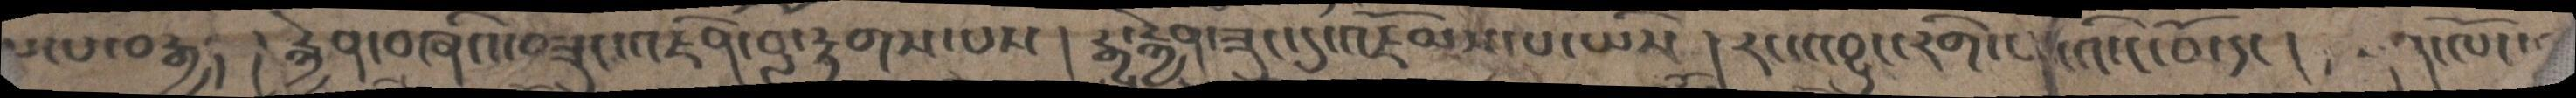ལ་པ་བརྒྱད། རྐྱེན་བཞིའ་བཟུང་འཛིན་བློ་རྟགས་པས། རྒྱུ་རྐྱེན་ཟུང་དུ་འཇོམས་པ་ཡིས། རང་འབྱུང་རིག་པ་འི་ངོ་བོ་དང། ན་ལོང་
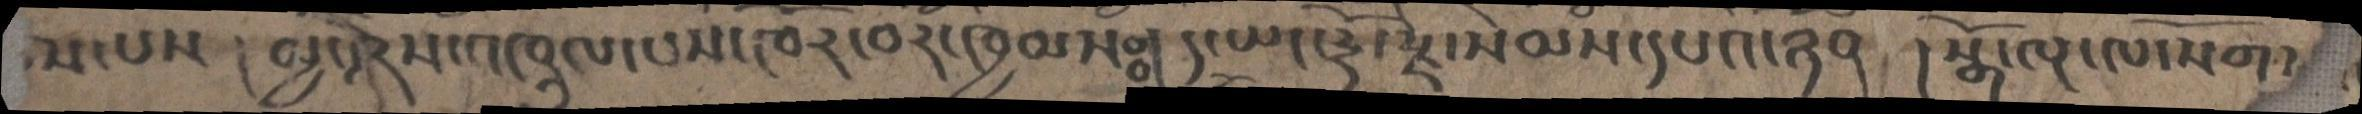ས་པས། མྱི་ཤེས་འཁྲུལ་པས་ཁོར་བར་ཁྱམསཿ །ད་ཡང་རྡོ་རྗེ་སེམས་དཔའ་ཉོན །སྒོ་ལྔ་ལ་སོགས
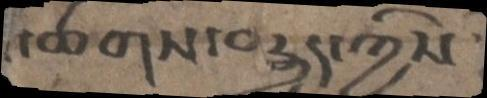་ཚགས་བརྒྱད་ཀྱིས
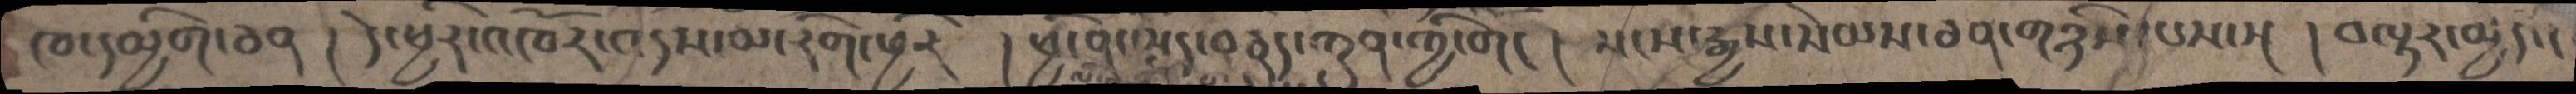ཁ་དམྱིག་ཅན །དེ་ཕྱིར་འཁོར་འདས་མ་རིག་ཕྱིར ། ཕྱི་ནང་སྣོད་བཅུད་ཀུན་ཀྱི་གང། སངས་རྒྱས་སེམས་ཅན་གཉིས་པས་སྔ། བལྟར་མྱེད་ང
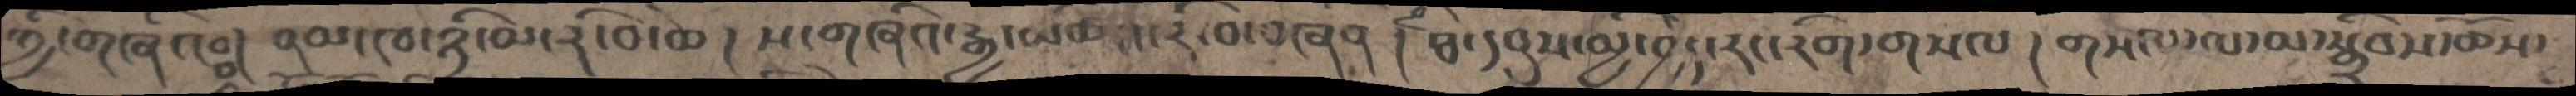ཀྱི་གཞིའཿ  །ནམ་ཁ་ཉི་མ་རི་བོ་ཆེ། ས་གཞིའ་རྒྱ་མཚོའ་རི་བོ་བཞིན ། ཐ་དབུས་མྱི་བྱེད་རང་རིག་གསལ། གསལ་ལ་མ་སྒྲིབས་ཆོས་
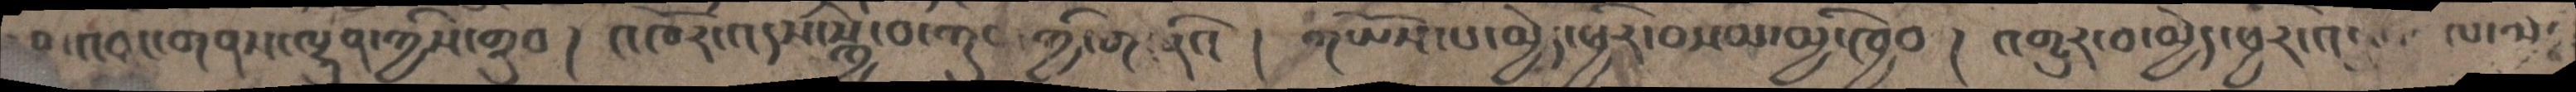བ་འབྱུང་གནས་ལྷུན་ཀྱིས་གྲུབ། འཁོར་འདས་སྐྱེ་བ་ཀུན་ཀྱི་གཞིས། གཡོས་པ་མྱེད་ཕྱིར་བསམ་མྱི་ཁྱབ། འགྱུར་བ་མྱེད་ཕྱིར་འབྱུང་བ་ལཿ
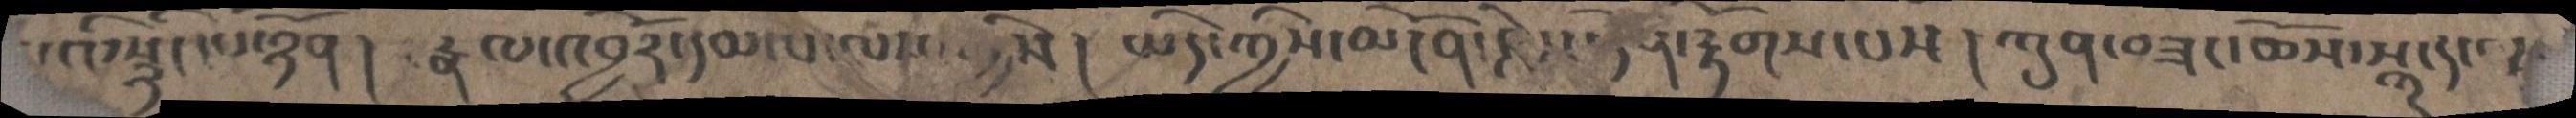པའི་སྙིང་པོ་ཉོན། རྣལ་འབྱོར་དམ་པ་ལས་ཀྱིས། ཡིད་ཀྱིས་མངོན་ཤེས་དོན་རྟོགས་པས། ཀུན་བཟང་ཆོས་སྐུ་དང་
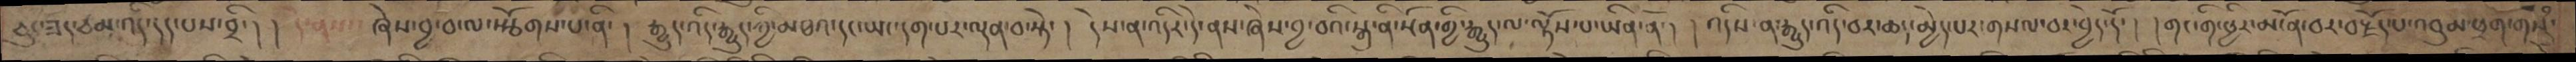ཅུང་ཟད་ཙམ་འདི་དད་པས་བྲི། །  དེ་ནས་ཞེས་བྱ་བ་ལ་སྩོགས་པ་ནི་། རྒྱུད་འདི་རྒྱུད་ཀྱི་མཐའ་དང་ཡང་དག་པར་ལྡན་བ་སྟེ་། དེས་ན་འདིར་དེ་ནས་ཞེས་བྱ་བའི་སྐུ་ནི་སྔོན་གྱི་རྒྱུད་ལ་ལྟོས་པ་ཡིན་ནོ་། འདིས་ན་རྒྱུད་འདི་བར་ཆད་མྱེད་པར་གསལ་བར་བྱེད་དོ་། །གང་གི་ཕྱིར་མངོན་བར་བརྗོད་པ་འབུམ་ཕྲག་གསུཾ་
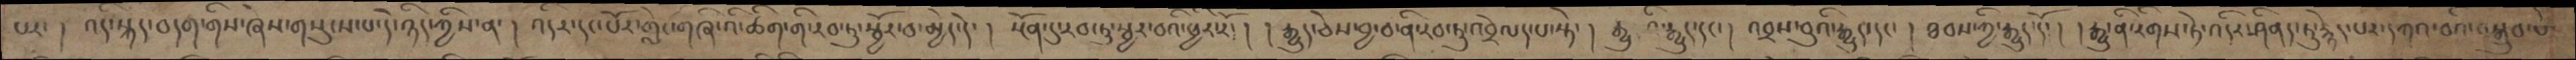པར་། འདི་སྐད་བདག་གིས་ཞེས་གསུངས་པ་དེ་ཉིད་ཀྱིས་ན་། འདིར་དང་པོར་གླེང་གཞི་འི་ཚིག་གི་རབ་ཏུ་སྦྱོར་བ་མྱེད་དེ་། སྔོན་དུ་རབ་ཏུ་སྦྱར་བའི་ཕྱིར་རོ་། །རྒྱུད་ཅེས་བྱ་བ་ནི་རབ་ཏུ་འབྲེལད་པ་སྟེ་། རྒྱུའི་རྒྱུད་དང་། འབྲས་བུའི་རྒྱུད་དང་། ཐབས་ཀྱི་རྒྱུད་དོ་། །རྒྱུ་ནི་རིགས་ཏེ་འདིར་ཤིནད་ཏུ་རྙེད་པར་དཀའ་བའི་བསྒྲུབ་པ
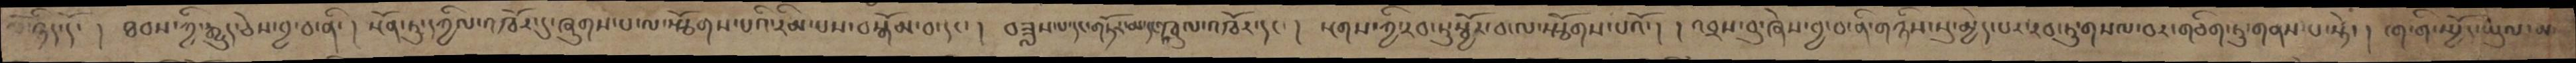ལོ་ཉིད་དོ་། ཐབས་ཀྱི་རྒྱུད་ཅེས་བྱ་བ་ནི་། སྔོན་ཏུ་དཀྱིལ་འཁོར་དུ་ཞུགས་པ་ལ་སྩོགས་པའི་རིམ་པས་བསྒོམ་བ་དང་། བཟླས་པ་དང་གཏོར་མ་དང་འཁྲུལ་འཁོར་དང་། སྔགས་ཀྱི་རབ་ཏུ་སྦྱོར་བ་ལ་སྩོགས་པའོ་། །འབྲས་བུ་ཞེས་བྱ་བ་ནི་གཉིས་སུ་མྱེད་པར་རབ་ཏུ་གསལ་བར་གཅིག་ཏུ་གནས་པ་སྟེ་། ངག་གི་སྤྱོད་ཡུལ་མ་
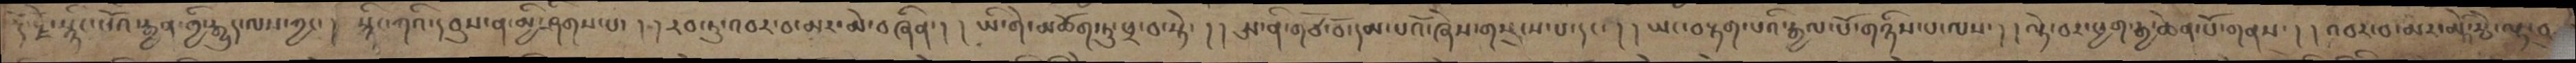རྡོ་རྗེ་སྙིང་པོའ་རྒྱན་གྱི་རྒྱུད་ལས་ཀྱང། སྙིང་ཀའི་དབུས་ན་མྱི་ཤིགས་པ། །རབ་ཏུ་འབར་བ་མར་མེ་བཞིན། །ཡི་གེ་མཆོག་ཏུ་ཕྲ་བ་སྟེ། །ཨ་ནི་གཙོ་བོ་དམ་པའོ་ཞེས་གསུངས་པ་དང་། །ཡང་བརྟག་པའི་རྒྱལ་པོ་གཉིས་པ་ལས། །ལྟེ་བ་ཕྱག་རྒྱ་ཆེན་པོ་གནས། །འབར་བ་མར་མེའི་རྩི་ལྟ་བུ
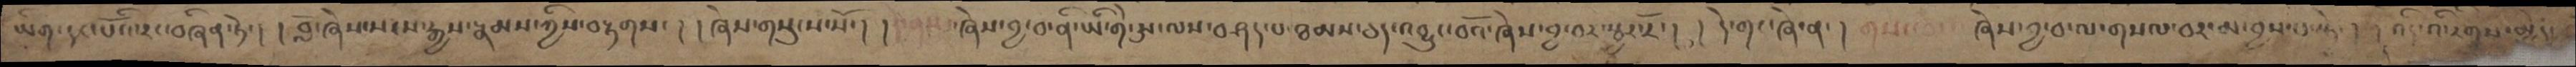ཡིག་དང་པོའི་སྔར་བཞིན་སྟེ། །བློ་ཞེས་སངས་རྒྱས་རྣམས་ཀྱིས་བརྟགས། །ཞེས་གསུངས་སོ། །ཞེས་བྱ་བ་ནི་ཡི་གེ་ཨ་ལས་བཤད་པ་ཐམས་ཅད་འབྱུང་བའོ་ཞེས་བྱ་བར་སྦྱར་རོ། །དེ་གང་ཞེ་ན།   གསང་བ་ཞེས་བྱ་བ་གསལ་བར་བྱས་པ་སྟེ། །འདི་འི་རིགས་མྱེད
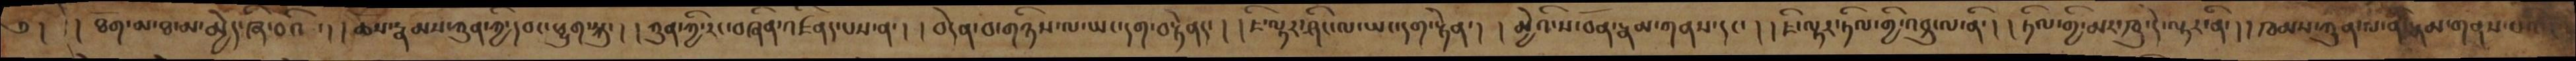༄། །ཐོག་མ་ཐ་མ་མྱེད་ཞི་བའི་། །ཆོས་རྣམས་ཀུན་ཀྱི་དབང་ཕྱུག་སྐུ་། །ཀུན་ཀྱི་རང་བཞིན་འཛིནད་པས་ན་། །བདེན་བ་གཉིས་ལ་ཡང་དག་བསྟེནད་། །ཇི་ལྟར་ཤིང་ལ་ཡང་དག་སྟེན་། །མྱེའི་ས་བོན་རྣམས་གནས་དང་། །ཇི་ལྟར་ཏིལ་གྱི་འབྲུ་ལ་ནི་། །ཏིལ་གྱི་མར་ཁུ་དེ་ལྟར་ནི་། །ཁམས་ཀུན་ལ་ནི་རྣམ་གནས་པའི་།
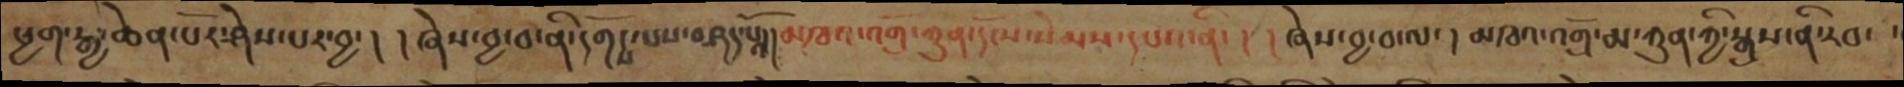ཕྱག་རྒྱ་ཆེན་པོར་ཤེས་པར་བྱ་། །ཞེས་བྱ་བ་ནི་དགོངས་པས་བཤད་པའོ། །མཁའ་འགྲོ་ཀུན་དངོས་སེམས་དཔའ་ནི་། །ཞེས་བྱ་བ་ལ་། མཁའ་འགྲོ་མ་ཀུན་ཀྱི་སྒྲས་ནི་རབ་
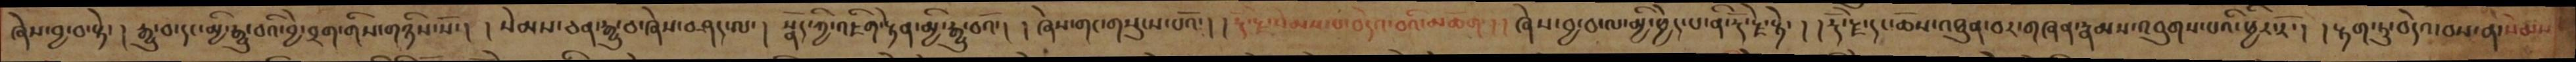ཞེས་བྱ་བ་སྟེ། རྒྱུ་བ་དང་མྱི་རྒྱུ་བའི་བྱེ་བྲག་གིས་གཉིས་སོ་། སེམས་ཅན་རྒྱུ་བ་ཞེས་བཤད་ལ་། སྣོད་ཀྱི་འཇིག་རྟེན་མྱི་རྒྱུ་བའོ་། །ཞེས་གང་གསུངས་པའོ་། །རྡོ་རྗེ་སེམས་པ་བདེའ་བའི་མཆོག་། །ཞེས་བྱ་བ་ལ་མྱི་ཕྱེད་པ་ནི་རྡོ་རྗེ་སྟེ་། །རྡོ་རྗེ་དང་ཆོས་འཐུན་བར་གཞན་རྣམས་འབུགས་པའི་ཕྱིར་རོ་། །རྟག་ཏུ་བདེའ་བས་ནི་སེམས
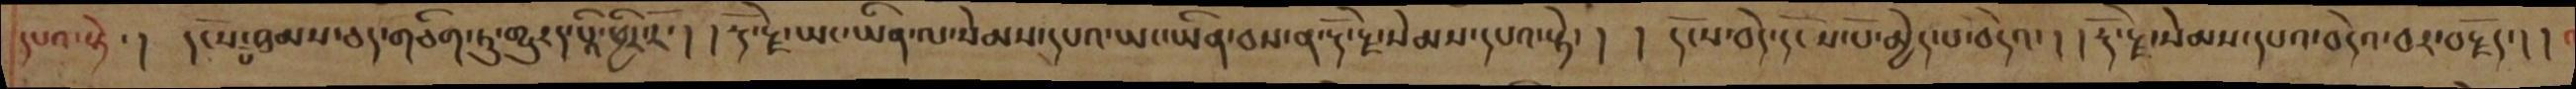དཔའ་སྟེ་། །དངོས་པོ་ཐམས་ཅད་གཅིག་ཏུ་གྱུརད་པའི་ཕྱིར་རོ་། །རྡོ་རྗེ་ཡང་ཡིན་ལ་སེམས་དཔའ་ཡང་ཡིན་བས་ན་རྡོ་རྗེ་སེམས་དཔའ་སྟེ་། །དངོས་བདེ་དངོས་པོ་མྱེད་པ་བདེའ་། །རྡོ་རྗེ་སེམས་དཔའ་བདེའ་བར་བརྗོད་། །
